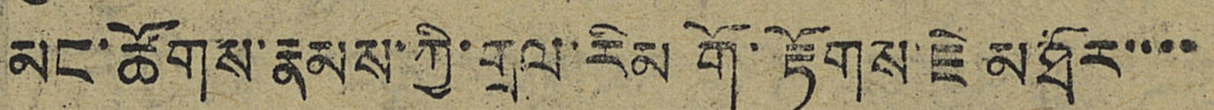མང་ཚོགས་རྣམས་ཀྱི་གྲལ་རིམ་གོ་རྟོགས་ཇེ་མཐོར་་་་
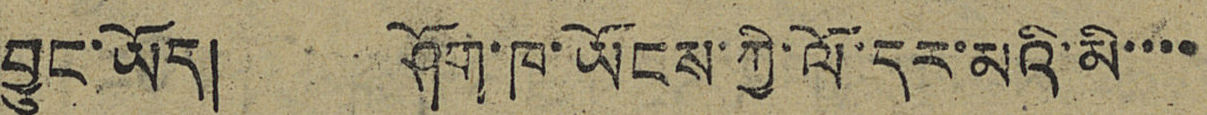བྱུང་ཡོད། ཤོག་ཁ་ཡོངས་ཀྱི་ལོ་དར་མའི་མི་་་་
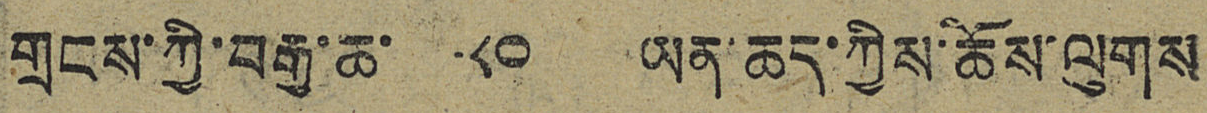གྲངས་ཀྱི་བརྒྱ་ཆ་ ༨༠ ཡན་ཆད་ཀྱིས་ཆོས་ལུགས
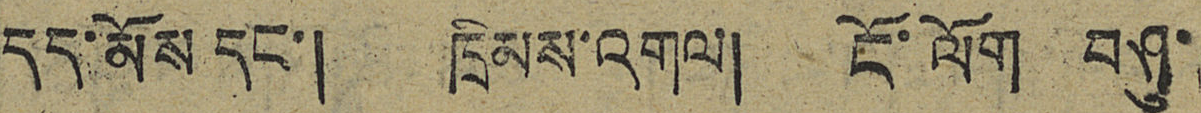དད་མོས་དང་། ཁྲིམས་འགལ། ངོ་ལོག བཤུ་
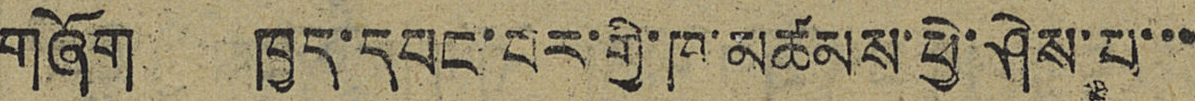གཞོག ཁྱད་དཔང་པར་གྱི་ཁ་མཚམས་ཕྱེ་ཤེས་པ་་་
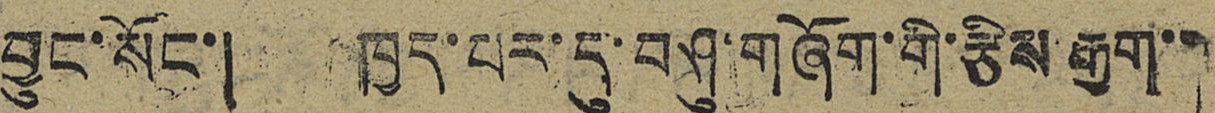བྱུང་སོང་། ཁྱད་པར་དུ་བཤུ་གཞོག་གི་རྩིས་རྒྱག་་
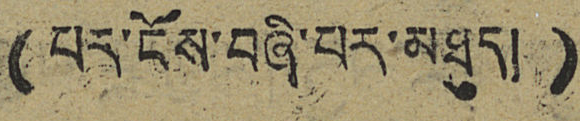(པར་ངོས་བཞི་པར་མཐུད།)
